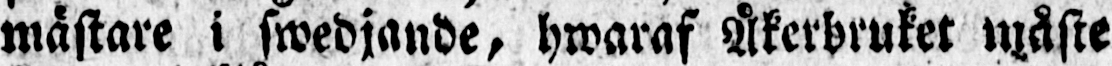mästare i swedjande, hwaraf Åkerbruket måste
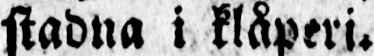stadna i klåperi.
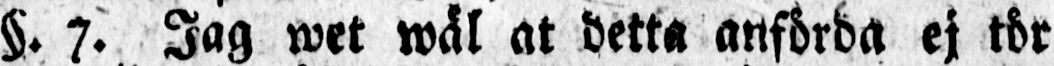§. 7. Jag wet wäl at detta anförda ej tör
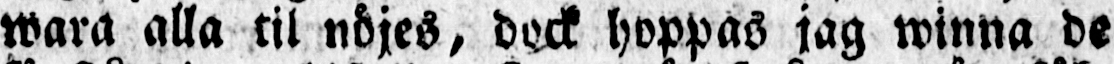wara alla til nöjes, dock hoppas jag winna de
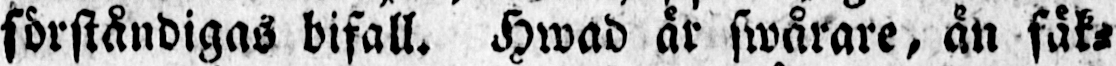förståndigas bifall. Hwad är swårare, än fäk-
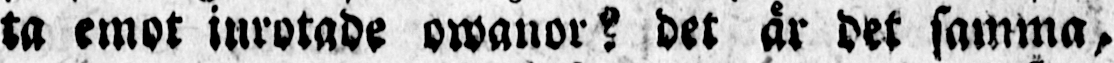ta emot inrotade owanor? det är det samma,
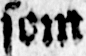som
